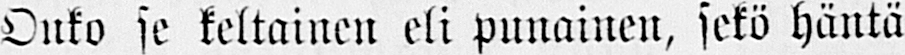Onko se keltainen eli punainen, sekö häntä
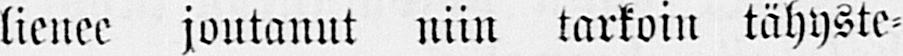lienee joutanut niin tarkoin tähyste-
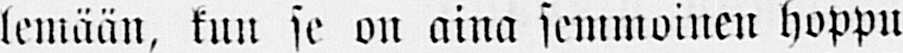lemään, kun se on aina semmoinen hoppu
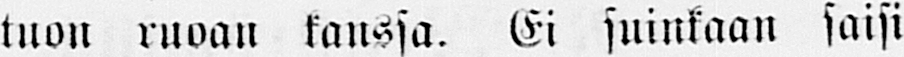tuon ruoan kanssa. Ei suinkaan saisi
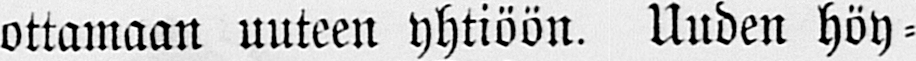ottamaan uuteen yhtiöön. Uuden höy-
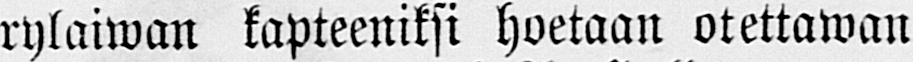rylaiwan kapteeniksi hoetaan otettawan
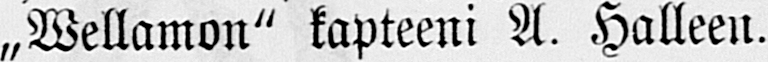„Wellamon" kapteeni A. Halleen.
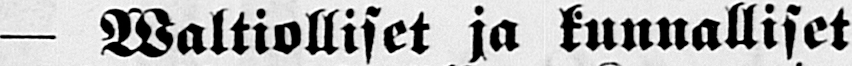— Waltiolliset ja kunnalliset
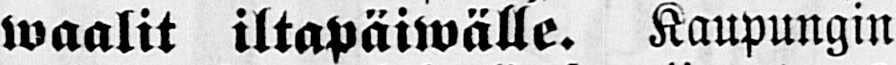waalit iltapäiwälle. Kaupungin-
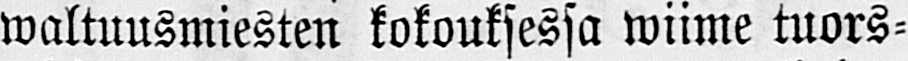waltuusmiesten kokouksessa wiime tuors-
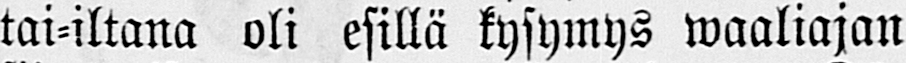tai-iltana oli esillä kysymys waaliajan
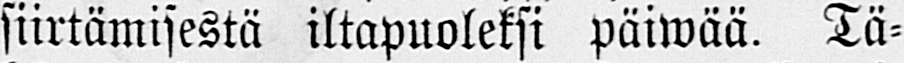siirtämisestä iltapuoleksi päiwää. Tä-
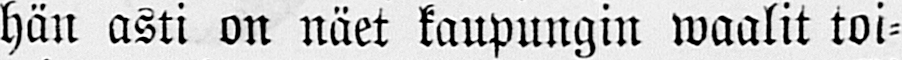hän asti on näet kaupungin waalit toi-
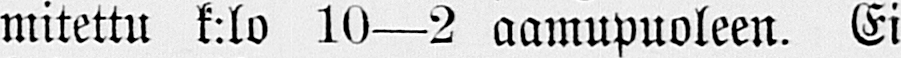mitettu k:lo 10—2 aamupuoleen. Ei
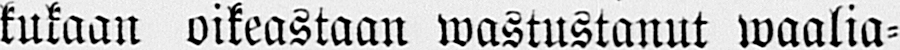kukaan oikeastaan wastustanut waalia-
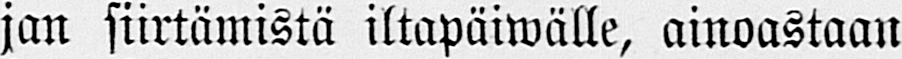jan siirtämistä iltapäiwälle, ainoastaan
